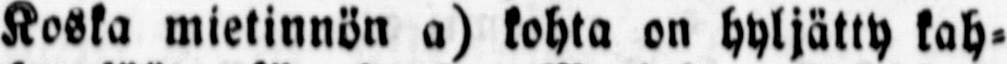Koska mietinnön a) kohta on hyljätty kah-
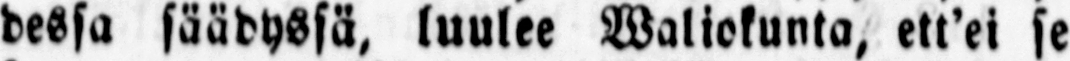dessa säädyssä, luulee Waliokunta, ett'ei se
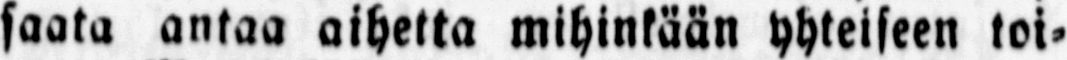saata antaa aihetta mihinkään yhteiseen toi-
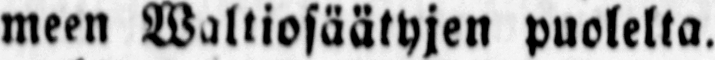meen Waltiosäätyjen puolelta.
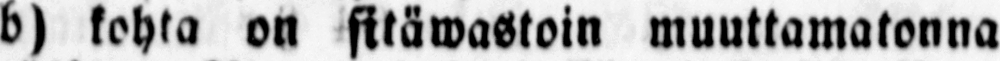b) kohta on sitäwastoin muuttamatonna
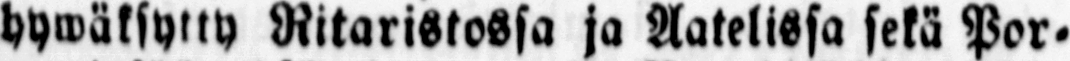hywäksytty Ritaristossa ja Aatelissa sekä Por-
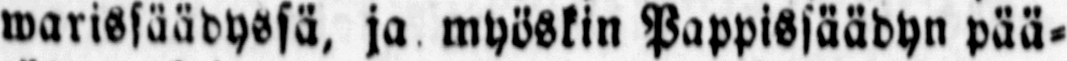warissäädyssä, ja myöskin Pappissäädyn pää-
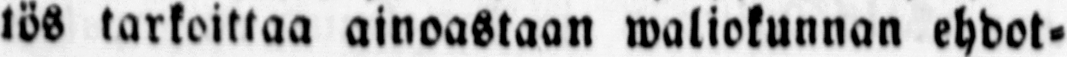tös tarkoittaa ainoastaan waliokunnan ehdot-
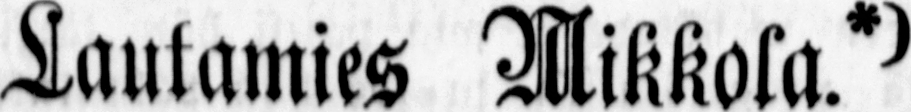Lautamies Mikkola.*)
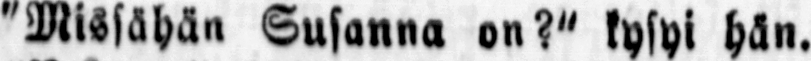"Missähän Susanna on?" kysyi hän.
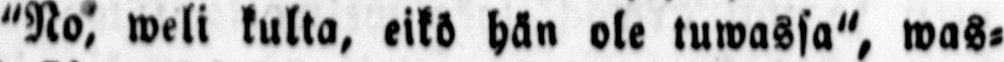"No,' weli kulta, eikö hän ole tuwassa", was-
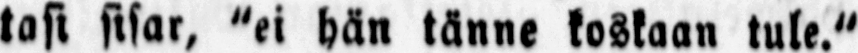tasi sisar, "ei hän tänne koskaan tule."
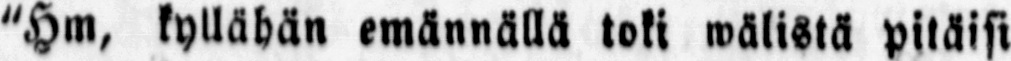"Hm, kyllähän emännällä toki wälistä pitäisi
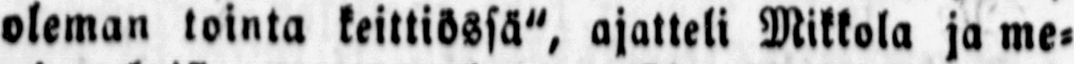oleman tointa keittiössä", ajatteli Mikkola ja me-
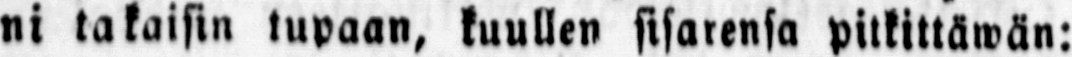ni takaisin tupaan, kuullen sisarensa pitkittäwän:
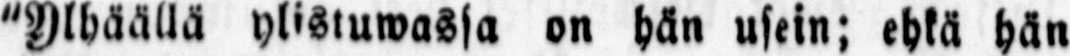"Ylhäällä ylistuwassa on hän usein; ehkä hän
